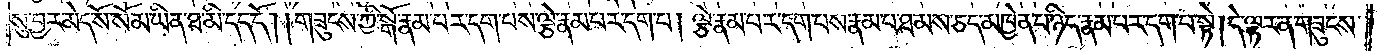སུ་བྱར་མེད་སོ་སོ་མ་ཡིན་ཐ་མི་དད་དོ། །གཟུངས་ཀྱི་སྒོ་རྣམ་པར་དག་པས་ལྕེ་རྣམ་པར་དག་པ། ལྕེ་རྣམ་པར་དག་པས་རྣམ་པ་ཐམས་ཅད་མཁྱེན་པ་ཉིད་རྣམ་པར་དག་པ་སྟེ། དེ་ལྟར་ན་གཟུངས་
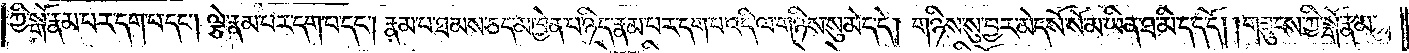ཀྱི་སྒོ་རྣམ་པར་དག་པ་དང༌། ལྕེ་རྣམ་པར་དག་པ་དང༌། རྣམ་པ་ཐམས་ཅད་མཁྱེན་པ་ཉིད་རྣམ་པར་དག་པ་འདི་ལ་གཉིས་སུ་མེད་དེ། གཉིས་སུ་བྱར་མེད་སོ་སོ་མ་ཡིན་ཐ་མི་དད་དོ། །གཟུངས་ཀྱི་སྒོ་རྣམ་
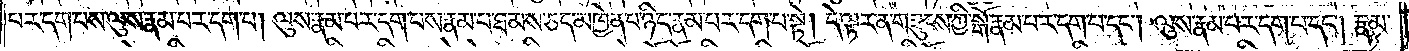པར་དག་པས་ལུས་རྣམ་པར་དག་པ། ལུས་རྣམ་པར་དག་པས་རྣམ་པ་ཐམས་ཅད་མཁྱེན་པ་ཉིད་རྣམ་པར་དག་པ་སྟེ། དེ་ལྟར་ན་གཟུངས་ཀྱི་སྒོ་རྣམ་པར་དག་པ་དང༌། ལུས་རྣམ་པར་དག་པ་དང༌། རྣམ་
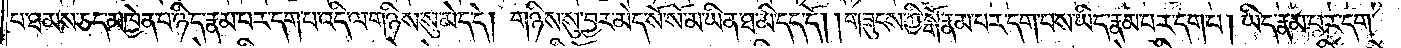པ་ཐམས་ཅད་མཁྱེན་པ་ཉིད་རྣམ་པར་དག་པ་འདི་ལ་གཉིས་སུ་མེད་དེ། གཉིས་སུ་བྱར་མེད་སོ་སོ་མ་ཡིན་ཐ་མི་དད་དོ། །གཟུངས་ཀྱི་སྒོ་རྣམ་པར་དག་པས་ཡིད་རྣམ་པར་དག་པ། ཡིད་རྣམ་པར་དག་
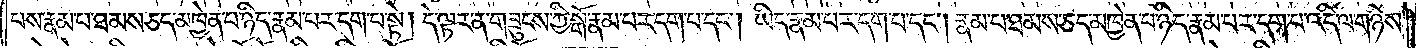པས་རྣམ་པ་ཐམས་ཅད་མཁྱེན་པ་ཉིད་རྣམ་པར་དག་པ་སྟེ། དེ་ལྟར་ན་གཟུངས་ཀྱི་སྒོ་རྣམ་པར་དག་པ་དང༌། ཡིད་རྣམ་པར་དག་པ་དང༌། རྣམ་པ་ཐམས་ཅད་མཁྱེན་པ་ཉིད་རྣམ་པར་དག་པ་འདི་ལ་གཉིས་
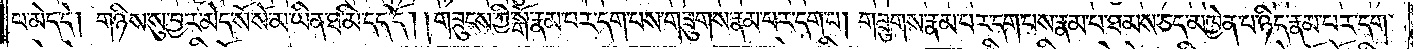པ་མེད་དེ། གཉིས་སུ་བྱར་མེད་སོ་སོ་མ་ཡིན་ཐ་མི་དད་དོ། །གཟུངས་ཀྱི་སྒོ་རྣམ་པར་དག་པས་གཟུགས་རྣམ་པར་དག་པ། གཟུགས་རྣམ་པར་དག་པས་རྣམ་པ་ཐམས་ཅད་མཁྱེན་པ་ཉིད་རྣམ་པར་དག་
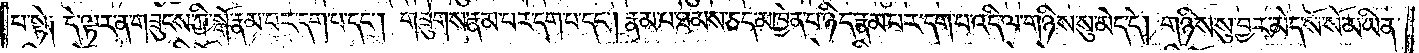པ་སྟེ༑ དེ་ལྟར་ན་གཟུངས་ཀྱི་སྒོ་རྣམ་པར་དག་པ་དང༌། གཟུགས་རྣམ་པར་དག་པ་དང༌། རྣམ་པར་ཐམས་ཅད་མཁྱེན་པ་ཉིད་རྣམ་པར་དག་པ་འདི་ལ་གཉིས་སུ་མེད་དེ། གཉིས་སུ་བྱར་མེད་སོ་སོ་མ་ཡིན་
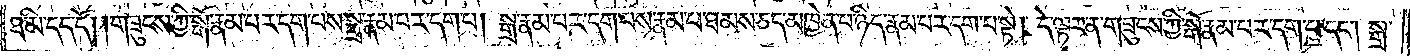ཐ་མི་དད་དོ། །གཟུངས་ཀྱི་སྒོ་རྣམ་པར་དག་པས་སྒྲ་རྣམ་པར་དག་པ། སྒྲ་རྣམ་པར་དག་པས་རྣམ་པ་ཐམས་ཅད་མཁྱེན་པ་ཉིད་རྣམ་པར་དག་པ་སྟེ། དེ་ལྟར་ན་གཟུངས་ཀྱི་སྒོ་རྣམ་པར་དག་པ་དང༌། སྒྲ་
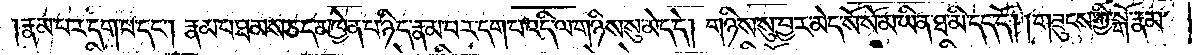རྣམ་པར་དག་པ་དང༌། རྣམ་པ་ཐམས་ཅད་མཁྱེན་པ་ཉིད་རྣམ་པར་དག་པ་འདི་ལ་གཉིས་སུ་མེད་དེ། གཉིས་སུ་བྱར་མེད་སོ་སོ་མ་ཡིན་ཐ་མི་དད་དོ། །གཟུངས་ཀྱི་སྒོ་རྣམ་
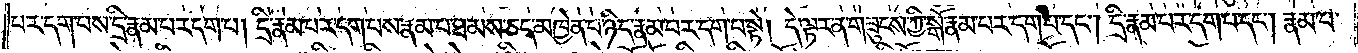པར་དག་པས་དྲི་རྣམ་པར་དག་པ། དྲི་རྣམ་པར་དག་པས་རྣམ་པ་ཐམས་ཅད་མཁྱེན་པ་ཉིད་རྣམ་པར་དག་པ་སྟེ། དེ་ལྟར་ན་གཟུངས་ཀྱི་སྒོ་རྣམ་པར་དག་པ་དང༌། དྲི་རྣམ་པར་དག་པ་དང༌། རྣམ་པ་
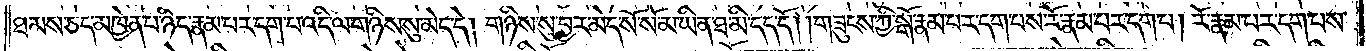ཐམས་ཅད་མཁྱེན་པ་ཉིད་རྣམ་པར་དག་པ་འདི་ལ་གཉིས་སུ་མེད་དེ། གཉིས་སུ་བྱར་མེད་སོ་སོ་མ་ཡིན་ཐ་མི་དད་དོ། །གཟུངས་ཀྱི་སྒོ་རྣམ་པར་དག་པས་རོ་རྣམ་པར་དག་པ། རོ་རྣམ་པར་དག་པས་
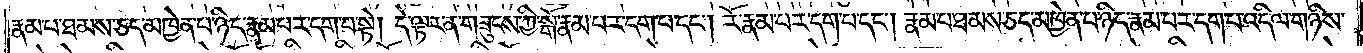རྣམ་པ་ཐམས་ཅད་མཁྱེན་པ་ཉིད་རྣམ་པར་དག་པ་སྟེ། དེ་ལྟར་ན་གཟུངས་ཀྱི་སྒོ་རྣམ་པར་དག་པ་དང༌། རོ་རྣམ་པར་དག་པ་དང༌། རྣམ་པ་ཐམས་ཅད་མཁྱེན་པ་ཉིད་རྣམ་པར་དག་པ་འདི་ལ་གཉིས་
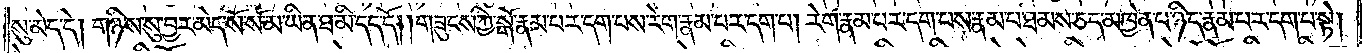སུ་མེད་དེ། གཉིས་སུ་བྱར་མེད་སོ་སོ་མ་ཡིན་ཐ་མི་དད་དོ། །གཟུངས་ཀྱི་སྒོ་རྣམ་པར་དག་པས་རེག་རྣམ་པར་དག་པ། རེག་རྣམ་པར་དག་པས་རྣམ་པ་ཐམས་ཅད་མཁྱེན་པ་ཉིད་རྣམ་པར་དག་པ་སྟེ།
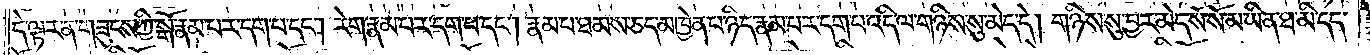དེ་ལྟར་ན་གཟུངས་ཀྱི་སྒོ་རྣམ་པར་དག་པ་དང༌། རེག་རྣམ་པར་དག་པ་དང༌། རྣམ་པ་ཐམས་ཅད་མཁྱེན་པ་ཉིད་རྣམ་པར་དག་པ་འདི་ལ་གཉིས་སུ་མེད་དེ། གཉིས་སུ་བྱར་མེད་སོ་སོ་མ་ཡིན་ཐ་མི་དད་
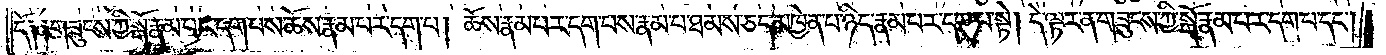དོ༑ ༑གཟུངས་ཀྱི་སྒོ་རྣམ་པར་དག་པས་ཆོས་རྣམ་པར་དག་པ། ཆོས་རྣམ་པར་དག་པས་རྣམ་པ་ཐམས་ཅད་མཁྱེན་པ་ཉིད་རྣམ་པར་དག་པ་སྟེ། དེ་ལྟར་ན་གཟུངས་ཀྱི་སྒོ་རྣམ་པར་དག་པ་དང༌།
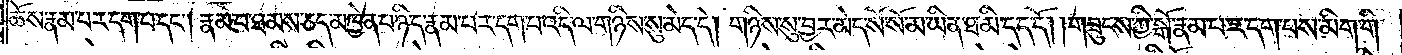ཆོས་རྣམ་པར་དག་པ་དང༌། རྣམ་པ་ཐམས་ཅད་མཁྱེན་པ་ཉིད་རྣམ་པར་དག་པ་འདི་ལ་གཉིས་སུ་མེད་དེ། གཉིས་སུ་བྱར་མེད་སོ་སོ་མ་ཡིན་ཐ་མི་དད་དོ། །གཟུངས་ཀྱི་སྒོ་རྣམ་པར་དག་པས་མིག་གི་
